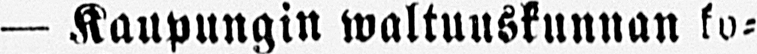— Kaupungin waltuuskunnan ko-
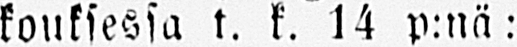kouksessa t. k. 14 p:nä:
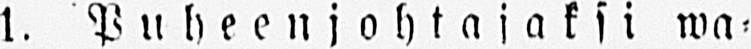1. Puheenjohtajaksi wa-
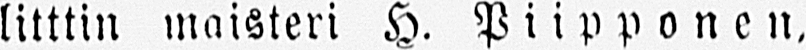litttin maisteri H. Piipponen,
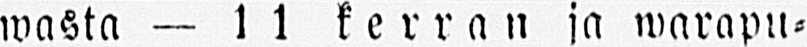wasta — 11 kerran ja warapu-
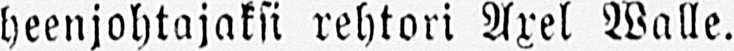heenjohtajaksi rehtori Axel Walle.
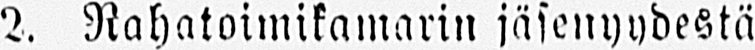2. Rahatoimikamarin jäsenyydestä
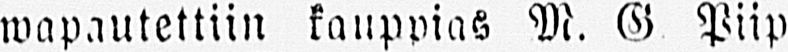wapautettiin kauppias M. G Piip
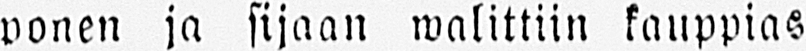ponen ja sijaan walittiin kauppias
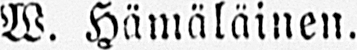W. Hämäläinen.
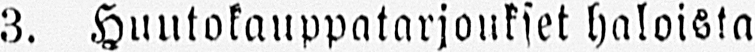3. Huutokauppatarjoukset haloista
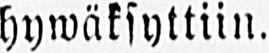hywäksyttiin.
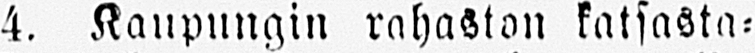4. Kaupungin rahaston katsasta-
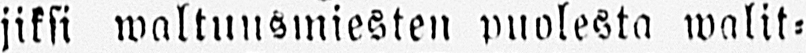jiksi waltuusmiesten puolesta walit-
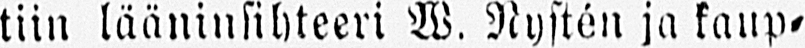tiin lääninsihteeri W. Nystén ja kaup-
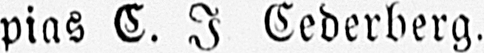pias C. I Cederberg.
